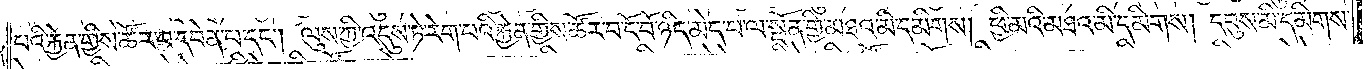པའི་རྐྱེན་གྱིས་ཚོར་བ་དབེན་པ་དང༌། ལུས་ཀྱི་འདུས་ཏེ་རེག་པའི་རྐྱེན་གྱིས་ཚོར་བ་ངོ་བོ་ཉིད་མེད་པ་ལ་སྔོན་གྱི་མཐའ་མི་དམིགས། ཕྱི་མའི་མཐའ་མི་དམིགས། དབུས་མི་དམིགས་
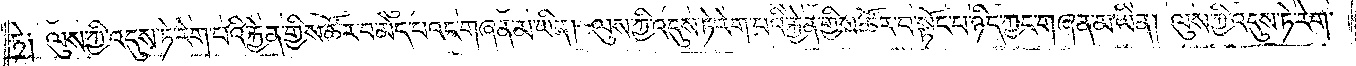ཏེ། ལུས་ཀྱི་འདུས་ཏེ་རེག་པའི་རྐྱེན་གྱིས་ཚོར་བ་མེད་པའང་གཞན་མ་ཡིན། ལུས་ཀྱི་འདུས་ཏེ་རེག་པའི་རྐྱེན་གྱིས་ཚོར་བ་སྟོང་པ་ཉིད་ཀྱང་གཞན་མ་ཡིན། ལུས་ཀྱི་འདུས་ཏེ་རེག་
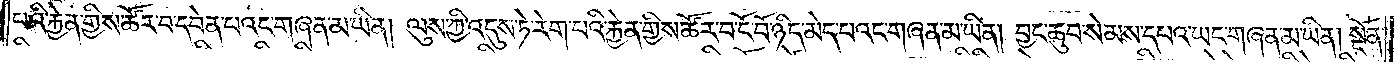པའི་རྐྱེན་གྱིས་ཚོར་བ་དབེན་པའང་གཞན་མ་ཡིན། ལུས་ཀྱི་འདུས་ཏེ་རེག་པའི་རྐྱེན་གྱིས་ཚོར་བ་ངོ་བོ་ཉིད་མེད་པའང་གཞན་མ་ཡིན། བྱང་ཆུབ་སེམས་དཔའ་ཡང་གཞན་མ་ཡིན། སྔོན་
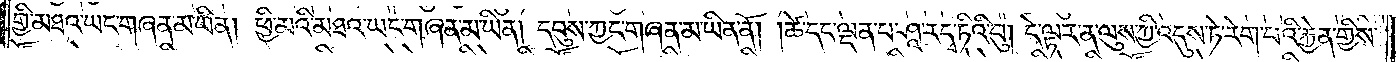གྱི་མཐའ་ཡང་གཞན་མ་ཡིན། ཕྱི་མའི་མཐའ་ཡང་གཞན་མ་ཡིན། དབུས་ཀྱང་གཞན་མ་ཡིན་ནོ། །ཚེ་དང་ལྡན་པ་ཤཱ་རདྭ་ཏིའི་བུ། དེ་ལྟར་ན་ལུས་ཀྱི་འདུས་ཏེ་རེག་པའི་རྐྱེན་གྱིས་
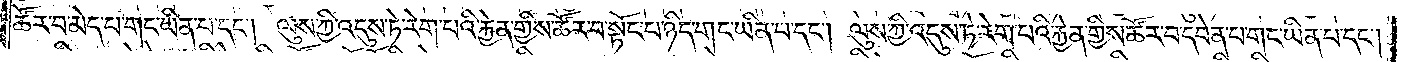ཚོར་བ་མེད་པ་གང་ཡིན་པ་དང༌། ལུས་ཀྱི་འདུས་ཏེ་རེག་པའི་རྐྱེན་གྱིས་ཚོར་བ་སྟོང་པ་ཉིད་གང་ཡིན་པ་དང༌། ལུས་ཀྱི་འདུས་ཏེ་རེག་པའི་རྐྱེན་གྱིས་ཚོར་བ་དབེན་པ་གང་ཡིན་པ་དང༌།
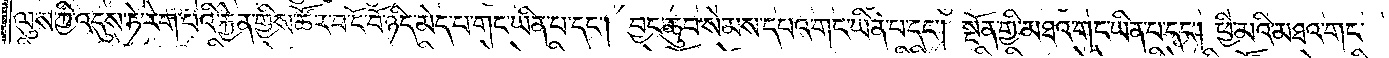ལུས་ཀྱི་འདུས་ཏེ་རེག་པའི་རྐྱེན་གྱིས་ཚོར་བ་ངོ་བོ་ཉིད་མེད་པ་གང་ཡིན་པ་དང༌། བྱང་ཆུབ་སེམས་དཔའ་གང་ཡིན་པ་དང༌། སྔོན་གྱི་མཐའ་གང་ཡིན་པ་དང༌། ཕྱི་མའི་མཐའ་གང་
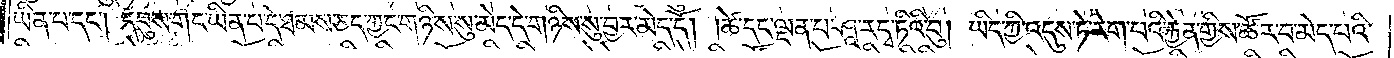ཡིན་པ་དང༌། དབུས་གང་ཡིན་པ་དེ་ཐམས་ཅད་ཀྱང་གཉིས་སུ་མེད་དེ་གཉིས་སུ་བྱར་མེད་དོ། །ཚེ་དང་ལྡན་པ་ཤཱ་རདྭ་ཏིའི་བུ། ཡིད་ཀྱི་འདུས་ཏེ་རེག་པའི་རྐྱེན་གྱིས་ཚོར་བ་མེད་པའི་
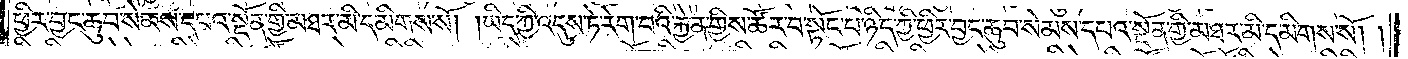ཕྱིར་བྱང་ཆུབ་སེམས་དཔའ་སྔོན་གྱི་མཐར་མི་དམིགས་སོ། །ཡིད་ཀྱི་འདུས་ཏེ་རེག་པའི་རྐྱེན་གྱིས་ཚོར་བ་སྟོང་པ་ཉིད་ཀྱི་ཕྱིར་བྱང་ཆུབ་སེམས་དཔའ་སྔོན་གྱི་མཐར་མི་དམིགས་སོ། །
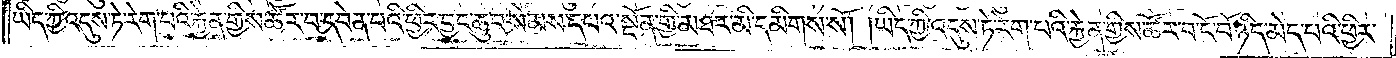ཡིད་ཀྱི་འདུས་ཏེ་རེག་པའི་རྐྱེན་གྱིས་ཚོར་བ་དབེན་པའི་ཕྱིར་བྱང་ཆུབ་སེམས་དཔའ་སྔོན་གྱི་མཐར་མི་དམིགས་སོ། །ཡིད་ཀྱི་འདུས་ཏེ་རེག་པའི་རྐྱེན་གྱིས་ཚོར་བ་ངོ་བོ་ཉིད་མེད་པའི་ཕྱིར་
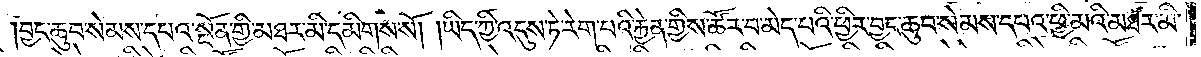བྱང་ཆུབ་སེམས་དཔའ་སྔོན་གྱི་མཐར་མི་དམིགས་སོ། །ཡིད་ཀྱི་འདུས་ཏེ་རེག་པའི་རྐྱེན་གྱིས་ཚོར་བ་མེད་པའི་ཕྱིར་བྱང་ཆུབ་སེམས་དཔའ་ཕྱི་མའི་མཐར་མི་
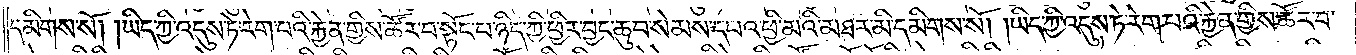དམིགས་སོ། །ཡིད་ཀྱི་འདུས་ཏེ་རེག་པའི་རྐྱེན་གྱིས་ཚོར་བ་སྟོང་པ་ཉིད་ཀྱི་ཕྱིར་བྱང་ཆུབ་སེམས་དཔའ་ཕྱི་མའི་མཐར་མི་དམིགས་སོ། །ཡིད་ཀྱི་འདུས་ཏེ་རེག་པའི་རྐྱེན་གྱིས་ཚོར་བ་
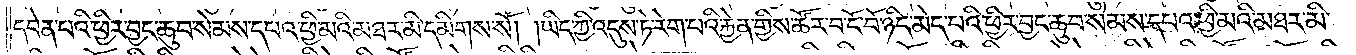དབེན་པའི་ཕྱིར་བྱང་ཆུབ་སེམས་དཔའ་ཕྱི་མའི་མཐར་མི་དམིགས་སོ། །ཡིད་ཀྱི་འདུས་ཏེ་རེག་པའི་རྐྱེན་གྱིས་ཚོར་བ་ངོ་བོ་ཉིད་མེད་པའི་ཕྱིར་བྱང་ཆུབ་སེམས་དཔའ་ཕྱི་མའི་མཐར་མི་
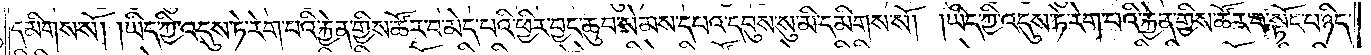དམིགས་སོ། །ཡིད་ཀྱི་འདུས་ཏེ་རེག་པའི་རྐྱེན་གྱིས་ཚོར་བ་མེད་པའི་ཕྱིར་བྱང་ཆུབ་སེམས་དཔའ་དབུས་སུ་མི་དམིགས་སོ། །ཡིད་ཀྱི་འདུས་ཏེ་རེག་པའི་རྐྱེན་གྱིས་ཚོར་བ་སྟོང་པ་ཉིད་
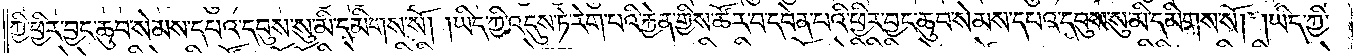ཀྱི་ཕྱིར་བྱང་ཆུབ་སེམས་དཔའ་དབུས་སུ་མི་དམིགས་སོ། །ཡིད་ཀྱི་འདུས་ཏེ་རེག་པའི་རྐྱེན་གྱིས་ཚོར་བ་དབེན་པའི་ཕྱིར་བྱང་ཆུབ་སེམས་དཔའ་དབུས་སུ་མི་དམིགས་སོ། །ཡིད་ཀྱི་
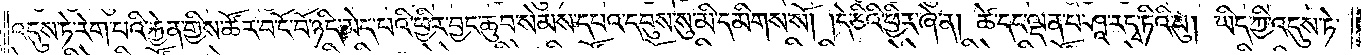འདུས་ཏེ་རེག་པའི་རྐྱེན་གྱིས་ཚོར་བ་ངོ་བོ་ཉིད་མེད་པའི་ཕྱིར་བྱང་ཆུབ་སེམས་དཔའ་དབུས་སུ་མི་དམིགས་སོ། །དེ་ཅིའི་ཕྱིར་ཞེ་ན། ཚེ་དང་ལྡན་པ་ཤཱ་རདྭ་ཏིའི་བུ། ཡིད་ཀྱི་འདུས་ཏེ་
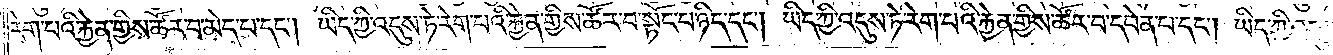རེག་པའི་རྐྱེན་གྱིས་ཚོར་བ་མེད་པ་དང༌། ཡིད་ཀྱི་འདུས་ཏེ་རེག་པའི་རྐྱེན་གྱིས་ཚོར་བ་སྟོང་པ་ཉིད་དང༌། ཡིད་ཀྱི་འདུས་ཏེ་རེག་པའི་རྐྱེན་གྱིས་ཚོར་བ་དབེན་པ་དང༌། ཡིད་ཀྱི་འདུས་
